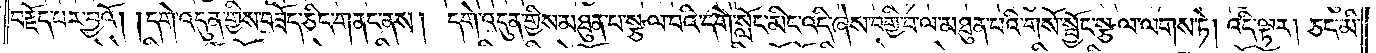བརྗོད་པར་བྱའོ། །དགེ་འདུན་གྱིས་བཟོད་ཅིང་གནང་ནས། དགེ་འདུན་གྱིས་མཐུན་པ་སྩལ་བའི་དགེ་སློང་མིང་འདི་ཞེས་བགྱི་བ་ལ་མཐུན་པའི་གསོ་སྦྱོང་སྩལ་ལགས་ཏེ། འདི་ལྟར། ཅང་མི་
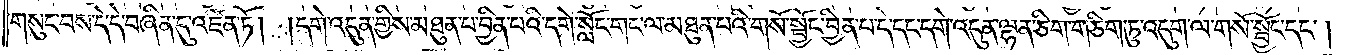གསུང་བས་དེ་དེ་བཞིན་དུ་འཛིན་ཏོ། །དགེ་འདུན་གྱིས་མཐུན་པ་བྱིན་པའི་དགེ་སློང་གང་ལ་མཐུན་པའི་གསོ་སྦྱོང་བྱིན་པ་དེ་དང་དགེ་འདུན་ལྷན་ཅིག་གཅིག་ཏུ་འདུག་ལ་གསོ་སྦྱོང་དང༌།
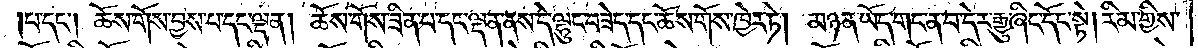པ་དང༌། ཆོས་གོས་བྱས་པ་དང་ལྡན། ཆོས་གོས་ཟིན་པ་དང་ལྡན་ནས་དེ་ལྷུང་བཟེད་དང་ཆོས་གོས་ཁྱེར་ཏེ། མཉན་ཡོད་གང་ན་བ་དེར་རྒྱུ་ཞིང་དོང་སྟེ། རིམ་གྱིས་
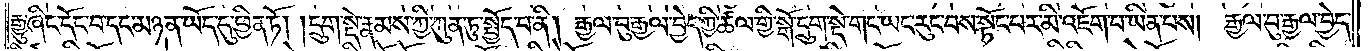རྒྱུ་ཞིང་དོང་བ་དང་མཉན་ཡོད་དུ་ཕྱིན་ཏོ། །དྲུག་སྡེ་རྣམས་ཀྱི་ཀུན་ཏུ་སྤྱོད་པ་ནི། རྒྱལ་བུ་རྒྱལ་བྱེད་ཀྱི་ཚལ་གྱི་སྒོ་དྲུག་སྡེ་གང་ཡང་རུང་བས་སྟོང་པར་མི་འཇོག་པ་ཡིན་པས། རྒྱལ་བུ་རྒྱལ་བྱེད་
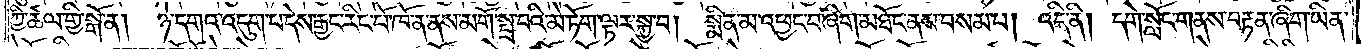ཀྱི་ཚལ་གྱི་སྒོ་ན། ཉེ་དགའ་འདུག་པ་དེས་རྒྱང་རིང་པོ་ཁོ་ན་ནས་མགོ་སྤྲ་བའི་མེ་ཏོག་ལྟར་སྐྱ་བ། སྨིན་མ་འཕྱང་བ་ཞིག་མཐོང་ནས་བསམ་པ། འདི་ནི། དགེ་སློང་གནས་བརྟན་ཞིག་ཡིན་
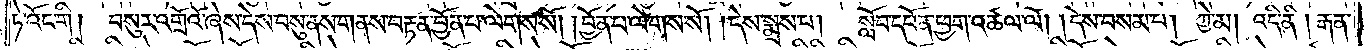ཏེ་འོང་གི། བསུར་འགྲོའོ་ཞེས་དེས་བསུ་ནས་གནས་བརྟན་བྱོན་པ་ལེགས་སོ། །བྱོན་པ་ལེགས་སོ། །དེས་སྨྲས་པ། སློབ་དཔོན་ཕྱག་འཚལ་ལོ། །དེས་བསམ་པ། ཀྱེ་མ། འདི་ནི། རྒན་
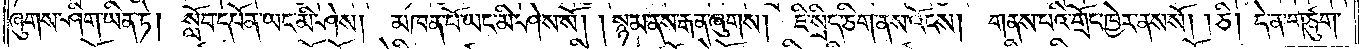ཞུགས་ཤིག་ཡིན་ཏེ། སློབ་དཔོན་ཡང་མི་ཤེས། མཁན་པོ་ཡང་མི་ཤེས་སོ། །སྙམ་ནས་རྒན་ཞུགས། ཇི་སྲིད་ཅིག་ནས་འོངས། གནས་པའི་གྲོང་ཁྱེར་ནས་སོ། །ཅི། དེ་ན་གཙུག་
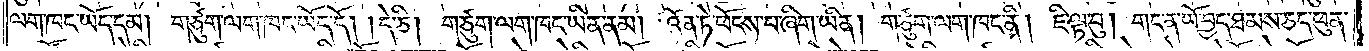ལག་ཁང་ཡོད་དམ། གཙུག་ལག་ཁང་ཡོད་དོ། །དེ་ཅི། གཙུག་ལག་ཁང་ཡིན་ནམ། འོན་ཏེ་ཕོངས་པ་ཞིག་ཡིན། གཙུག་ལག་ཁང་ནི། ཇི་ལྟ་བུ། གང་ན་ཡོ་བྱད་ཐམས་ཅད་ཕུན་
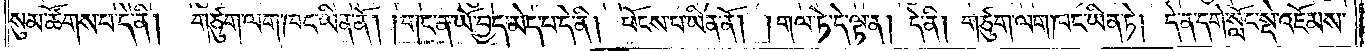སུམ་ཚོགས་པ་དེ་ནི།  གཙུག་ལག་ཁང་ཡིན་ནོ། །གང་ན་ཡོ་བྱད་མེད་པ་དེ་ནི། ཕོངས་པ་ཡིན་ནོ། །གལ་ཏེ་དེ་ལྟ་ན། དེ་ནི། གཙུག་ལག་ཁང་ཡིན་ཏེ། དེ་ན་དགེ་སློང་སྡེ་འཇོམས་
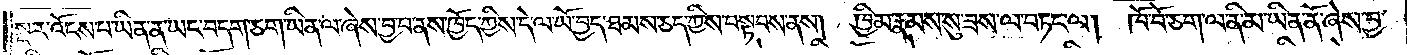སྔར་འོངས་པ་ཡིན་ན་ཡང་བདག་ཅག་ཡིན་ལ་ཞེས་བྱ་བ་ནས་ཁྱོད་ཀྱིས་དེ་ལ་ཡོ་བྱད་ཐམས་ཅད་ཀྱིས་བསྟབས་ནས། ཁྱིམ་རྣམས་སུ་ཟས་ལ་བཏང་ལ། ཁོ་བོ་ཅག་ལ་ནི་མ་ཡིན་ནོ་ཞེས་བྱ་
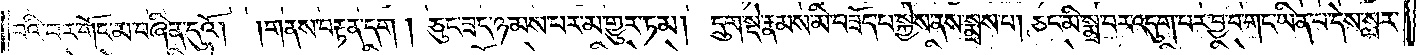བའི་བར་གོང་མ་བཞིན་དུའོ། །གནས་བརྟན་དག། ཅུང་ཟད་ཉམས་པར་མ་གྱུར་ཏམ། དྲུག་སྡེ་རྣམས་མི་བཟོད་པ་སྐྱེས་ནས་སྨྲས་པ། ཅང་མི་སྨྲ་བར་འདུག་པར་བྱ་བ་གང་ཡིན་པ་དེས་སླར་
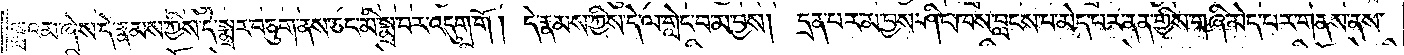སྨྲའམ་ཞེས་དེ་རྣམས་ཀྱིས་དེ་སྨྲར་བཅུག་ནས་ཅང་མི་སྨྲ་བར་འདུག་གོ། དེ་རྣམས་ཀྱིས་དེ་ལ་གླེང་བ་མ་བྱས། དྲན་པར་མ་བྱས་ཤིང་ཁས་བླངས་པ་མེད་པར་ནན་གྱིས་གཞི་མེད་པར་གནས་ནས་
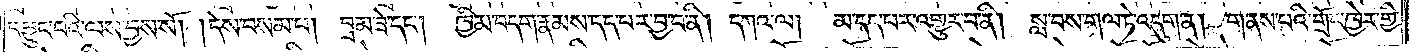དབྱུང་བའི་ལས་བྱས་སོ། །དེས་བསམ་པ། བྲམ་ཟེ་དང༌། ཁྱིམ་བདག་རྣམས་དད་པར་བྱ་བ་ནི། དཀའ་ལ།  མ་དད་པར་འགྱུར་བ་ནི། སླ་བས་གལ་ཏེ་འདུག་ན། གནས་པའི་གྲོང་ཁྱེར་གྱི་
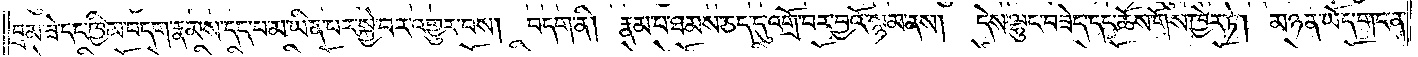བྲམ་ཟེ་དང་ཁྱིམ་བདག་རྣམས་དད་པ་མ་ཡིན་པར་སྐྱེ་བར་འགྱུར་བས། བདག་ནི། རྣམ་པ་ཐམས་ཅད་དུ་འགྲོ་བར་བྱའོ་སྙམ་ནས།  དེས་ལྷུང་བཟེད་དང་ཆོས་གོས་ཁྱེར་ཏེ། མཉན་ཡོད་གང་ན་
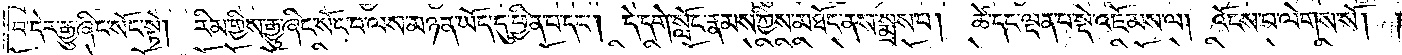བ་དེར་རྒྱུ་ཞིང་སོང་སྟེ། རིམ་གྱིས་རྒྱུ་ཞིང་སོང་བ་ལས་མཉན་ཡོད་དུ་ཕྱིན་པ་དང༌། དེ་དགེ་སློང་རྣམས་ཀྱིས་མཐོང་ནས་སྨྲས་པ།  ཚེ་དང་ལྡན་པ་སྡེ་འཇོམས་ལ། འོངས་པ་ལེགས་སོ། །
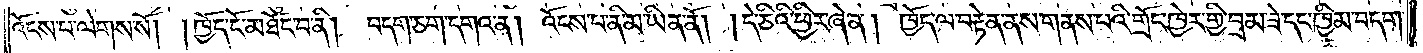འོངས་པ་ལེགས་སོ། །ཁྱོད་ངོ་མཐོང་བ་ནི། བདག་ཅག་དགའ་ན། འོངས་པ་ནི་མ་ཡིན་ནོ། །དེ་ཅིའི་ཕྱིར་ཞེ་ན། ཁྱོད་ལ་བརྟེན་ནས་གནས་པའི་གྲོང་ཁྱེར་གྱི་བྲམ་ཟེ་དང་ཁྱིམ་བདག་
